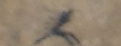༨
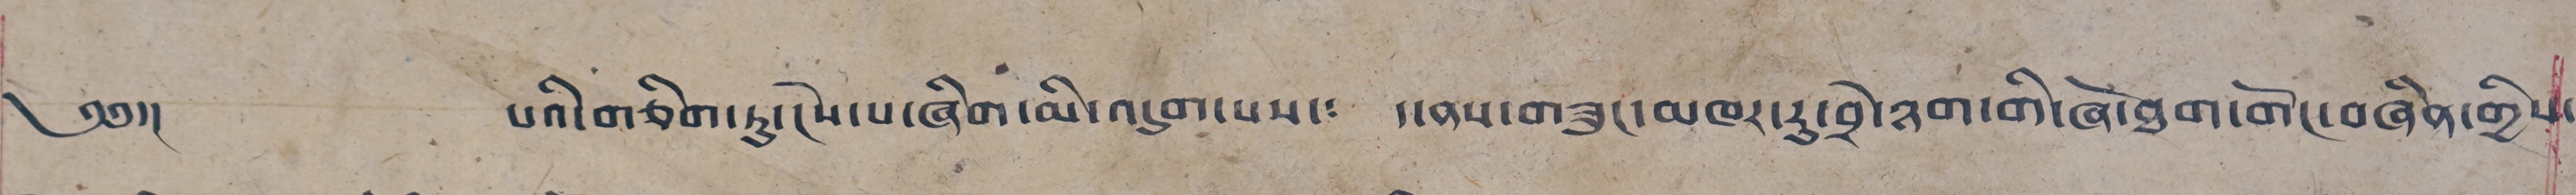༄༅།། པའི་གཅིག་ཏུ་ངེས་པ་ཞིག་མི་འདུག་པས་༴ ད་ནས་གཟུང་མཁར་རུ་བྲེ་ཉག་གི་ཞོ་ཐག་གོང་བཞིན་གྱིས་
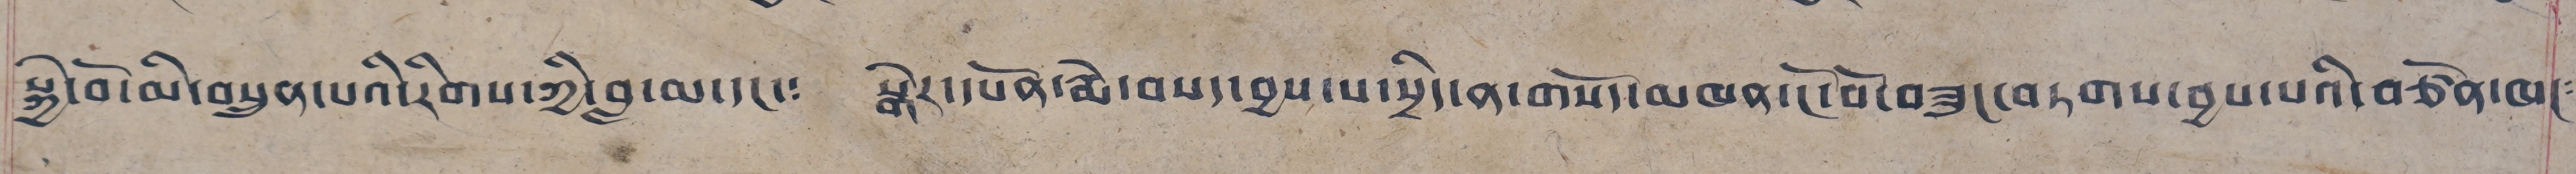སྐྱེ་བ་མི་བསྲུན་པའི་རིགས་ཀྱི་བླ་མ་དང་༴ སྒེར་དཔོན་རྨེ་བསད་བྱས་པ་སྲིད་ན་གསོད་མཁན་ངོ་བོ་བཟུང་བཏགས་བྱས་པའི་བཙོན་ཁང༴
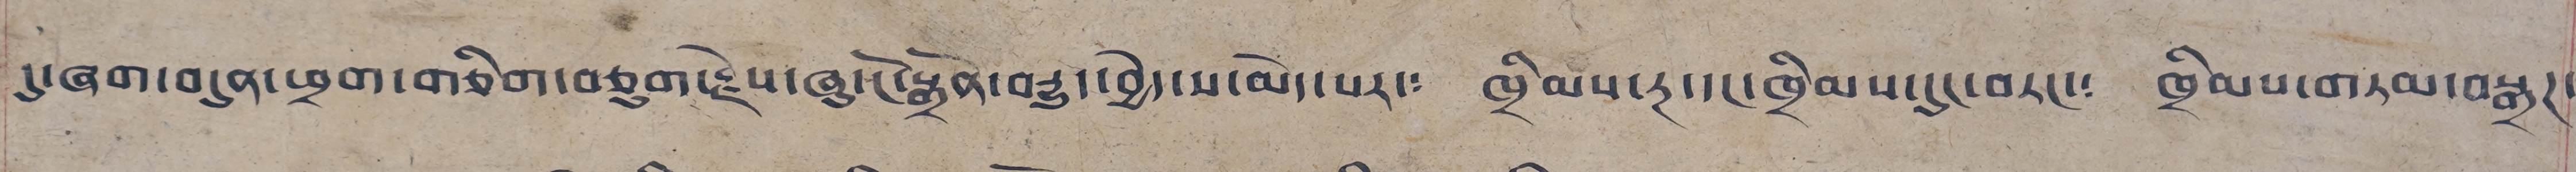དུ་ཞག་བདུན་ཕྲག་གཅིག་བཅུག་རྗེས་ཞུ་ངོ་སྒྲོན་བརྒྱུ་བྱེད་པ་མེད་པར་༴ ཁྲིམས་རྔ་དང་ཁྲིམས་དུང་བཏང་༴ ཁྲིམས་གཏམ་བསྒྲཊ་
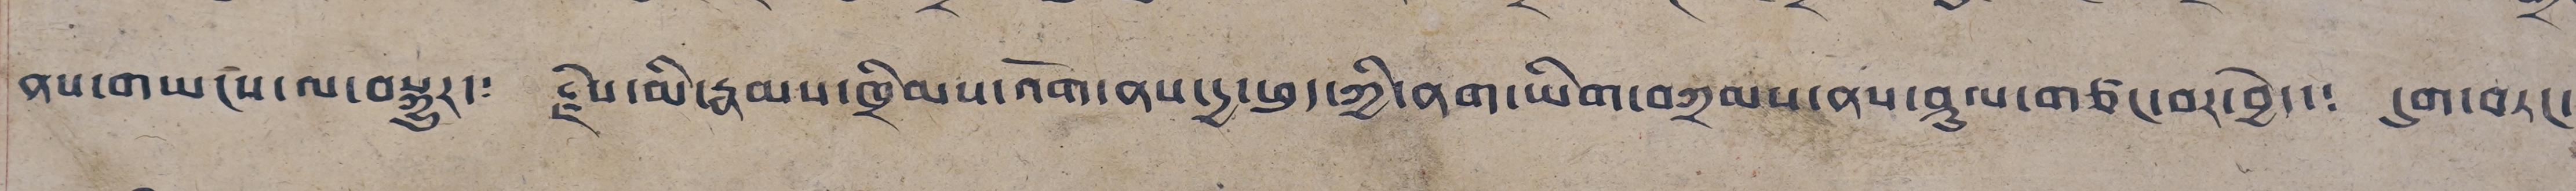ནས་གཡངས་ལ་བསྐུར་༴ རྗེས་མི་རྣམས་ཁྲིམས་འོག་ནས་དྱ་ཕྲད་ཀྱི་ནག་ཡིག་བཀྲམས་ནས་ཤུལ་གཙང་བར་བྱེད་༴ དུག་བཏང་
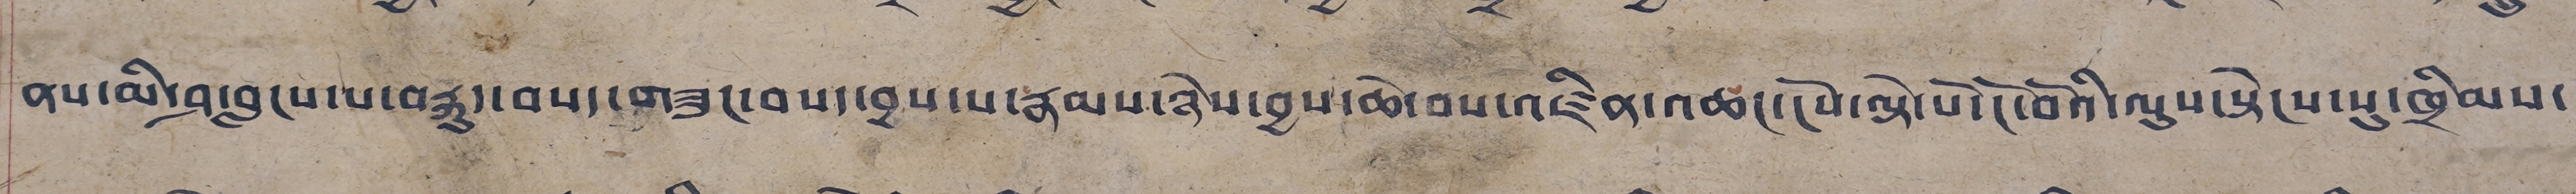ནས་མི་ཤ་བླངས་པ་བརྐུད་བསད་གཟུང་བསད་བྱས་པ་རྣམས་ཉེས་བྱས་ཆེ་བས་འཛིན་འཚང་ངོས་ལྟེ་པོ་ངོ་བའི་ལུས་སྟེངས་སུ་ཁྲིམས་
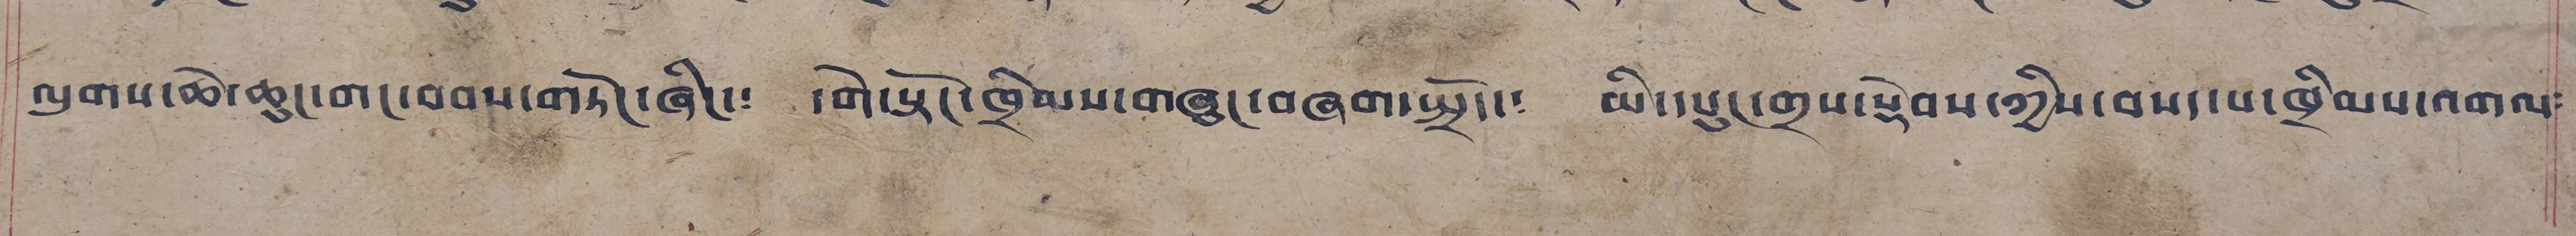ལུགས་ཆེ་ཆུང་གང་བབས་གཏོང་ཞིང་༴ དགེ་སྟོང་ཁྲིམས་གཞུང་བཞག་སྤྲོད་༴ མི་དཔུང་གྲས་སྡེབས་ཀྱིས་བསད་པ་ཁྲིམས་འགལ༴
